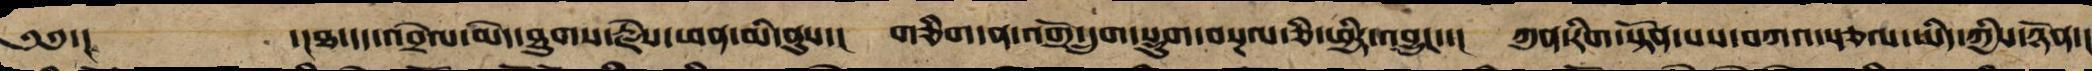༄༅་། ་།ཐ་དད་འབྲེལ་མེད་ཐུགས་རྗེས་ཕན་མི་ནུས་། གཅིག་ན་འགྲོ་དྲུག་སྡུག་བསྔལ་ཅི་ཕྱིར་འབྱུང་་། ཀུན་རིག་སྟོན་པས་བཀའ་སྩལ་ཡིད་ཀྱིས་ཉོན་།
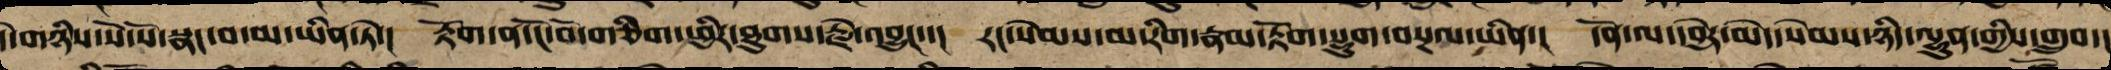དེ་གཉིས་སོ་སོ་སྣང་བ་མ་ཡིན་ཏེ་། རྟོག་ན་ངོ་བོ་གཅིག་ཕྱིར་ཐུགས་རྗེ་འབྱུང་་། རང་སེམས་མ་རིག་རྣམ་རྟོག་སྡུག་བསྔལ་ཡིན་། དོན་ལ་དབྱེར་མེད་སེམས་ཉིད་ལྷུན་གྱིས་གྲུབ་།
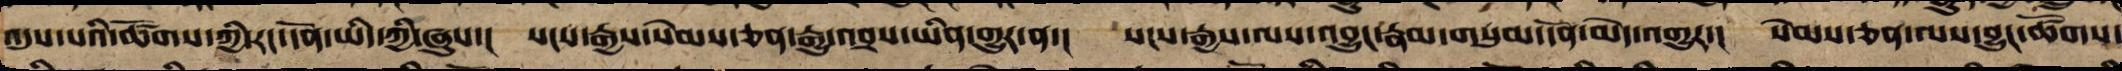འདུས་པའི་ཚོགས་ཀྱིས་རང་དོན་ཡིད་ཀྱིས་ཞུས་། སངས་རྒྱས་སེམས་ཅན་རྒྱུ་འབྲས་ཡིན་གྱུར་ན་། སངས་རྒྱས་ལས་བྱུང་རྣམ་གསུམ་དོན་མེད་འགྱུར་། སེམས་ཅན་ལས་བྱུང་ཚོགས་
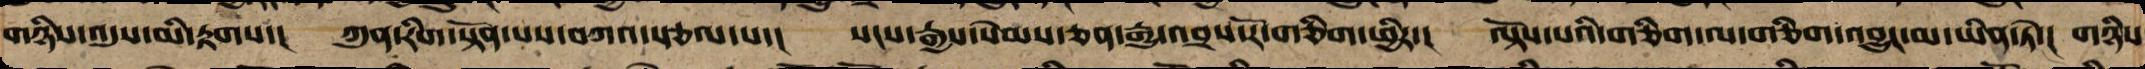གཉིས་འདུས་མི་རྟགས་།  ཀུན་རིག་སྟོན་པས་བཀའ་སྩལ་པ་། སངས་རྒྱས་སེམས་ཅན་རྒྱུ་འབྲས་རོ་གཅིག་ཕྱིར་། ལྟོས་པའི་གཅིག་ལ་གཅིག་འབྱུང་མ་ཡིན་ཏེ་། གཉིས་
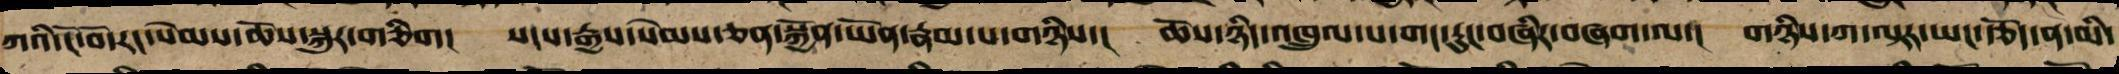ཀའི་ངོ་བོ་རང་སེམས་ཆོས་སྐུར་གཅིག། སངས་རྒྱས་སེམས་ཅན་སྐྱོན་ཡོན་རྣམ་པ་གཉིས་། ཆོས་ཉིད་འཁྲུལ་པ་གང་རུང་གཞིར་བཞག་ལ་། གཉིས་ཀ་ལྟར་ཡང་རྩོད་ན་མི་
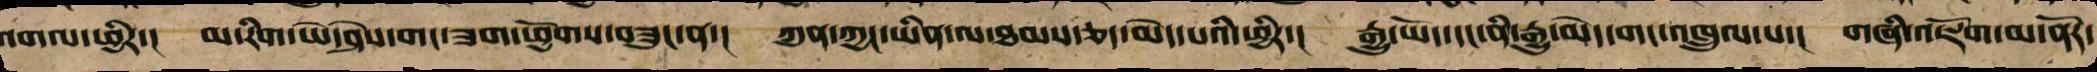འགལ་ཕྱིར་། མ་རིག་ཡེ་ཤེས་གང་ཟག་ཕྱོགས་བཟུང་ན་། ཀུན་ཀྱང་ཡིན་ལ་ཐམས་ཅད་མེད་པའི་ཕྱིར་། རྒྱུ་ཡོད་དང་ནི་རྒྱུ་མེད་གང་འཁྲུལ་པ་། གཞི་འཇོག་མ་ནོར་
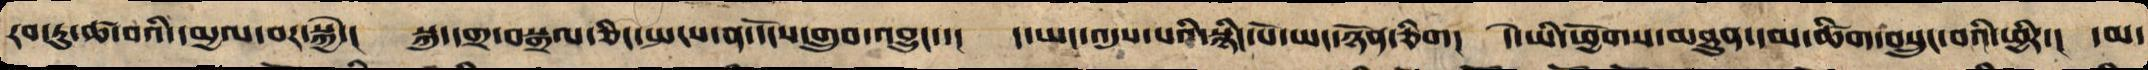རབ་ཏུ་ཚ་བའི་དམྱལ་བར་སྐྱེ་། སྐུ་དགྲ་བསྒྲལ་ཞིང་སྤངས་ན་དངོས་གྲུབ་འབྱུང་་། ད་ཡང་འདུས་པའི་སྙིང་པོ་ཡང་ཉོན་ཅིག། དེ་ཡི་ཕྱོགས་མཐུན་དམ་ཚིག་བསྲུང་བའི་ཕྱིར་། དམ་
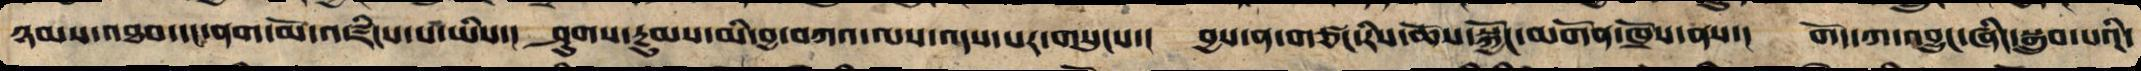ཉམས་འཐབ་དང་ནག་མོ་འཛིངས་པ་ཡིས་། ཤུགས་རྔུམས་མི་བྱ་བཀའ་ལས་འདས་པར་གསུངས་། བྱས་ན་གཙང་རིས་ཆོས་སྐྱོང་མགོན་ཁྲོས་ནས་། གོད་ཀ་འབྱུང་ཞིང་སྒྲུབ་པའི་
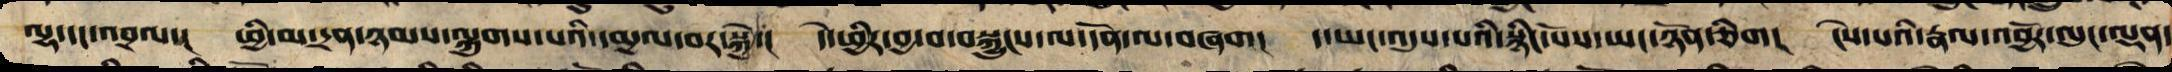ལྷ་དང་འབྲལ་། ཕྱི་མ་དྲན་ཉམས་ལྐུགས་པའི་དམྱལ་བར་སྐྱེ་། དེ་ཕྱིར་བྱ་བ་བསྐྱུངས་ལ་དོན་ལ་བཞག། ད་ཡང་འདུས་པའི་སྙིང་པོ་ཡང་ཉོན་ཅིག། ངེས་པའི་རྣལ་འབྱོར་ལུང་ལྡན་
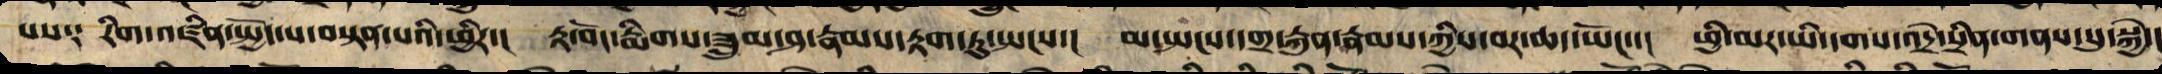པས༑ རིག་འཛིན་སྤྱོད་པ་བསྟན་པའི་ཕྱིར་། རྟ་བོང་རྨིག་ཟླུམ་ཤ་རྣམས་རྟག་ཏུ་སྤངས་། མ་སྤངས་དགྲ་རྐུན་རྣམས་ཀྱིས་བར་ཆད་ཡོང་། ཕྱི་མར་ཡི་དྭགས་འདྲེ་སྲིན་གནས་སུ་སྐྱེ་
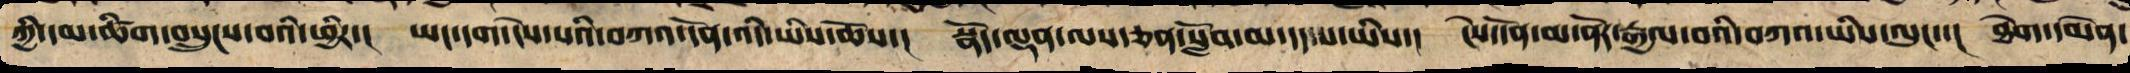ཀྱི་དམ་ཚིག་བསྲུང་བའི་ཕྱིར་། ཡང་དག་ངེས་པའི་བཀའ་དོན་འདི་ཡི་ཆོས་། སྣོད་ལྡན་ལས་ཅན་སློབ་མ་དད་པ་ཡིས་། ངེས་དོན་མ་ནོར་རྒྱལ་བའི་བཀའ་ཡི་ལུང་། ཐེག་དམེན་
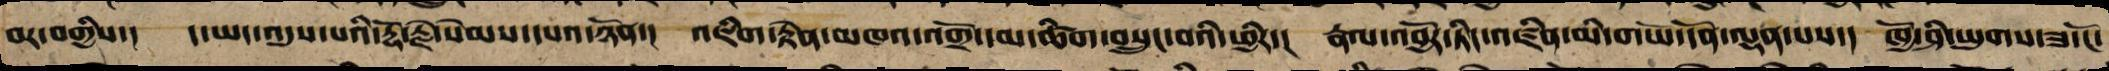བར་གྱིས་། ད་ཡང་འདུས་པའི་རྡོ་རྗེ་སེམས་དཔའ་ཉོན་། འཇིག་རྟེན་མཁའ་འགྲོའི་དམ་ཚིག་བསྲུང་བའི་ཕྱིར་། རྣལ་འབྱོར་ཏིང་འཛིན་མི་གཡོ་དོན་ལྡན་པས་། ཁྱོ་ཤི་ཡུགས་ཟ་ངོ་
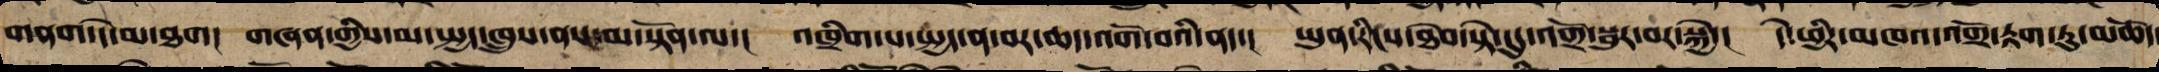གནག་དེ་མ་ཐག། གཞན་གྱིས་མ་སྤྱད་ཁྲུས་ནས་མ་སྟོན་ལ་། འཁྲིག་པ་སྤྱད་ན་བར་ཆད་འགོ་བའི་ནད་། ཡུན་རིང་ཐེབས་ཏེ་དུད་འགྲོ་སྦུར་བར་སྐྱེ་། དེ་ཕྱིར་མཁའ་འགྲོ་རྟག་ཏུ་མཆོད་
